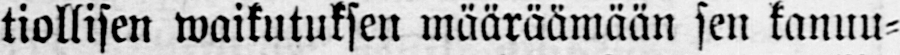tiollisen waikutuksen määräämään sen kanuu-
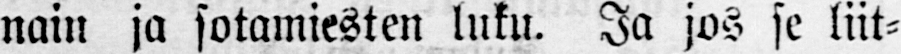nain ja sotamiesten luku. Ja jos se liit-
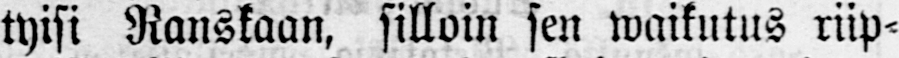tyisi Ranskaan, silloin sen waikutus riip-
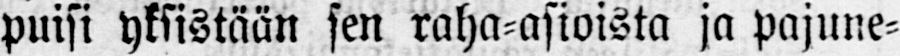puisi yksistään sen raha-asioista ja pajune-
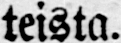teista.
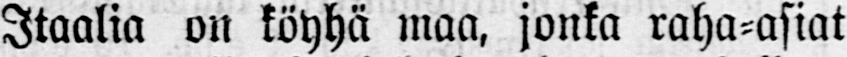Itaalia on köyhä maa, jonka raha-asiat
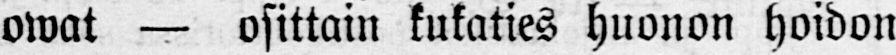owat — osittain kukaties huonon hoidon
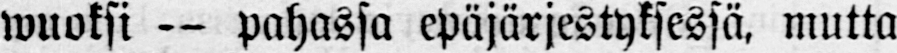wuoksi — pahassa epäjärjestyksessä, mutta
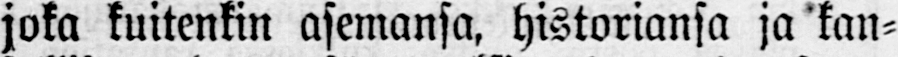joka kuitenkin asemansa, historiansa ja kan-
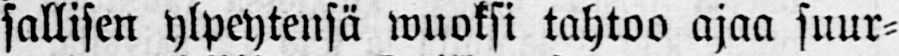sallisen ylpeytensä wuoksi tahtoo ajaa suur-
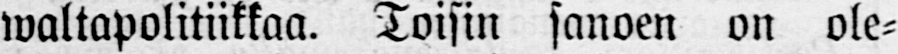waltapolitiikkaa. Toisin sanoen on ole-
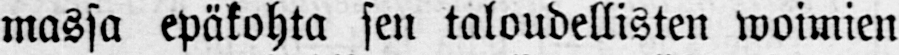massa epäkohta sen taloudellisten woimien
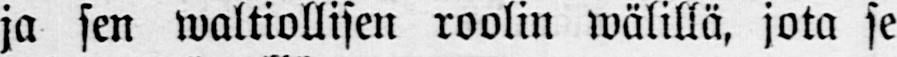ja sen waltiollisen roolin wälillä, jota se
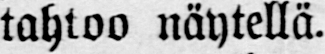tahtoo näytellä.
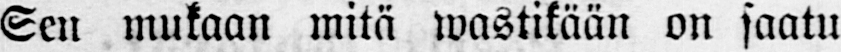Sen mukaan mitä wastikään on saatu
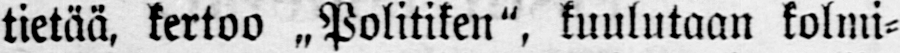tietää, kertoo ˶Politiken", kuulutaan kolmi-
